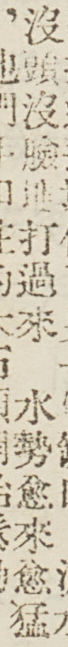沒頭沒臉地打過來，水勢愈來愈猛
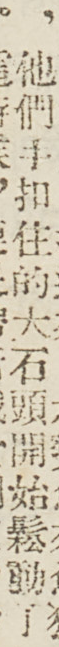，他們手扣住的大石頭開始鬆動了
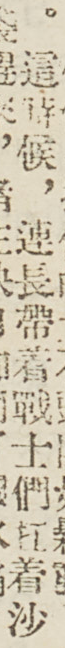。這時候，連長帶着戰士們扛着沙
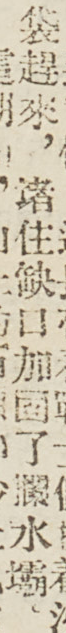袋趕來，堵住缺口加固了攔水壩。
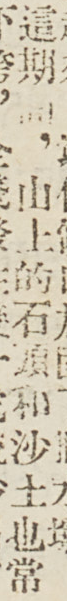這期間，山上的石頭和沙土也常
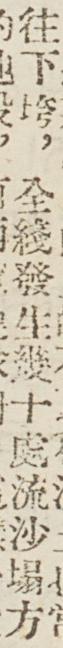往下垮，全綫發生幾十處流沙塌方
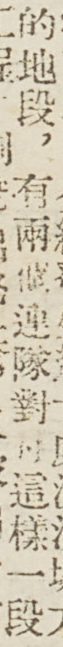的低端，有兩個連隊對於這樣一段
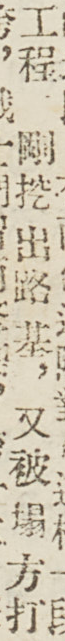工程，剛挖出路基，又被塌方打
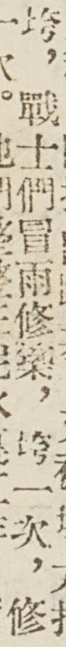垮，戰士們冒雨修築，垮一次，修
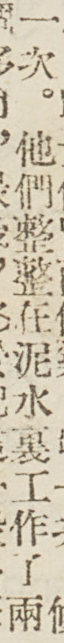一次。他們整整在泥水裏工作了兩
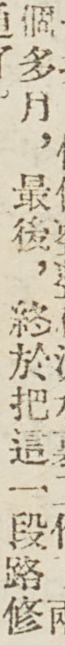個多月，最後，終於把這一段路修
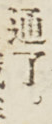通了。
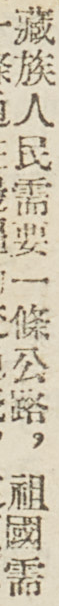藏族人民需要一條公路，祖國需
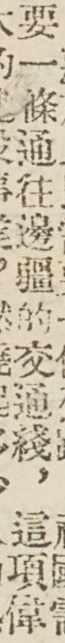要一條通往邊疆的交通綫，這項偉
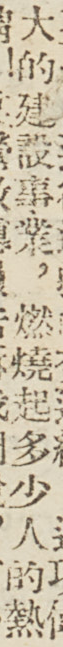大的建設事業，燃燒起多少人的熱
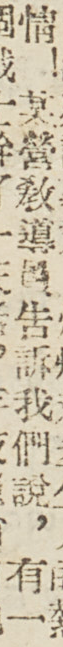情！某營敎導員告訴我們說，有一
